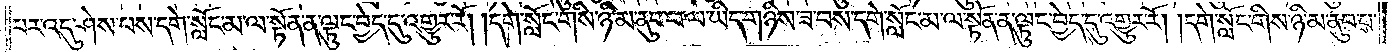པར་འདུ་ཤེས་པས་དགེ་སློང་མ་ལ་སྟོན་ན་ལྟུང་བྱེད་དུ་འགྱུར་རོ། །དགེ་སློང་གིས་ཉི་མ་ནུབ་པ་ལ་ཡིད་གཉིས་ཟ་བས་དགེ་སློང་མ་ལ་སྟོན་ན་ལྟུང་བྱེད་དུ་འགྱུར་རོ། །དགེ་སློང་གིས་ཉི་མ་ནུབ་པ་
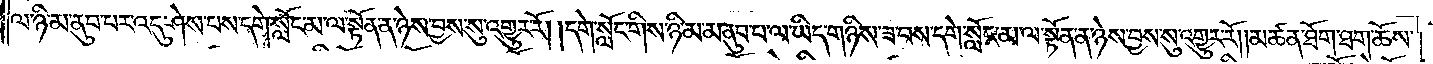ལ་ཉི་མ་ནུབ་པར་འདུ་ཤེས་པས་དགེ་སློང་མ་ལ་སྟོན་ན་ཉེས་བྱས་སུ་འགྱུར་རོ། །དགེ་སློང་གིས་ཉི་མ་མ་ནུབ་པ་ལ་ཡིད་གཉིས་ཟ་བས་དགེ་སློང་མ་ལ་སྟོན་ན་ཉེས་བྱས་སུ་འགྱུར་རོ། །མཚན་ཐོག་ཐག་ཆོས་
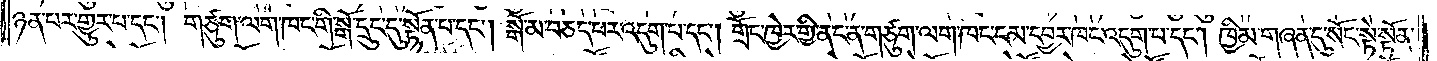ཉན་པར་གྱུར་པ་དང༌། གཙུག་ལག་ཁང་གི་སྒོ་དྲུང་དུ་སྟོན་པ་དང༌། སྒོ་མ་བཅད་པར་འདུག་པ་དང༌། གྲོང་ཁྱེར་གྱི་ནང་ན་གཙུག་ལག་ཁང་ངམ་དབྱར་ཁང་འདུག་པ་དང༌། ཁྱིམ་གཞན་དུ་སོང་སྟེ་སྟོན་
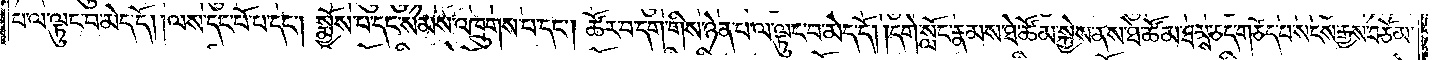པ་ལ་ལྟུང་བ་མེད་དོ། །ལས་དང་པོ་པ་དང༌། སྨྱོས་པ་དང་སེམས་འཁྲུགས་པ་དང༌། ཚོར་བ་དག་གིས་ཉེན་པ་ལ་ལྟུང་བ་མེད་དོ། །དགེ་སློང་རྣམས་ཐེ་ཚོམ་སྐྱེས་ནས་ཐེ་ཚོམ་ཐམས་ཅད་གཅོད་པ་སངས་རྒྱས་བཅོམ་
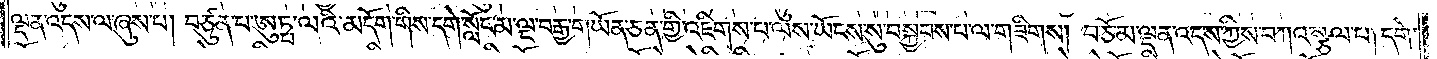ལྡན་འདས་ལ་ཞུས་པ། བཙུན་པ་ཨུཏྤ་ལའི་མདོག་གིས་དགེ་སློང་མ་ལྔ་བརྒྱ་གཡོན་ཅན་གྱི་འཇིགས་པ་ལས་ཡོངས་སུ་བསྐྱབས་པ་ལ་གཟིགས། བཅོམ་ལྡན་འདས་ཀྱིས་བཀའ་སྩལ་པ། དགེ་
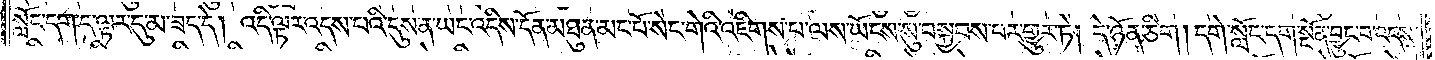སློང་དག་ད་ལྟར་དུ་མ་ཟད་དེ། འདི་ལྟར་འདས་པའི་དུས་ན་ཡང་འདིས་དོན་མཐུན་མང་པོ་སེང་གེའི་འཇིགས་པ་ལས་ཡོངས་སུ་བསྐྱབས་པར་གྱུར་ཏེ། དེ་ཉོན་ཅིག །དགེ་སློང་དག་སྔོན་བྱུང་བ་འདས་
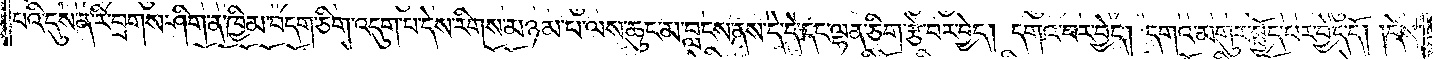པའི་དུས་ན་རི་བྲགས་ཤིག་ན་ཁྱིམ་བདག་ཅིག་འདུག་པ་དེས་རིགས་མཉམ་པ་ལས་ཆུང་མ་བླངས་ནས་དེ་དེ་དང་ལྷན་ཅིག་རྩེ་བར་བྱེད། དགའ་བར་བྱེད། དགའ་མགུར་སྤྱོད་པར་བྱེད་དོ། །དེས་
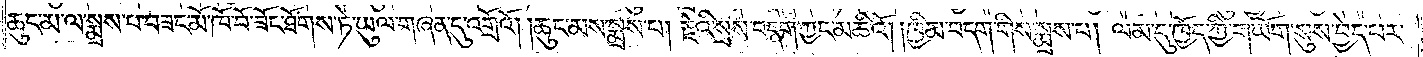ཆུང་མ་ལ་སྨྲས་པ་བཟང་མོ་ཁོ་བོ་ཟོང་ཐོགས་ཏེ་ཡུལ་གཞན་དུ་འགྲོའོ། །ཆུང་མས་སྨྲས་པ། རྗེའི་སྲས་བདག་ཀྱང་མཆིའོ། །ཁྱིམ་བདག་གིས་སྨྲས་པ། ལམ་དུ་ཁྱོད་ཀྱི་གཡོག་སུས་བྱེད་པར་
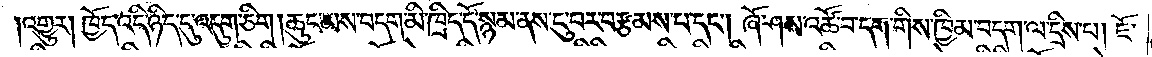འགྱུར། ཁྱོད་འདི་ཉིད་དུ་འདུག་ཅིག །ཆུང་མས་བདག་མི་ཁྲིད་དོ་སྙམ་ནས་ངུ་བར་བརྩམས་པ་དང༌། ཞོ་ཤས་འཚོ་བ་དག་གིས་ཁྱིམ་བདག་ལ་དྲིས་པ། ཇོ་
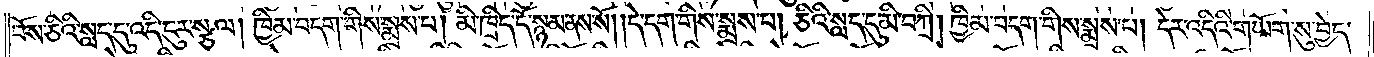བོས་ཅིའི་སླད་དུ་འདི་དུར་སྩལ། ཁྱིམ་བདག་གིས་སྨྲས་པ། མི་ཁྲིད་དོ་སྙམ་ནས་སོ། །དེ་དག་གིས་སྨྲས་པ། ཅིའི་སླད་དུ་མི་བཀྲི། ཁྱིམ་བདག་གིས་སྨྲས་པ། དེར་འདིའི་གཡོག་སུ་བྱེད་
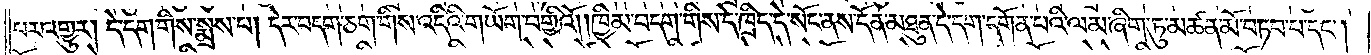པར་འགྱུར། དེ་དག་གིས་སྨྲས་པ། དེར་བདག་ཅག་གིས་འདིའི་གཡོག་བགྱིའོ། །ཁྱིམ་བདག་གིས་དེ་ཁྲིད་དེ་སོང་ནས་དོན་མཐུན་དེ་དག་དགོན་པའི་ལམ་ཞིག་ཏུ་མཚན་མོ་བཏབ་པ་དང༌།
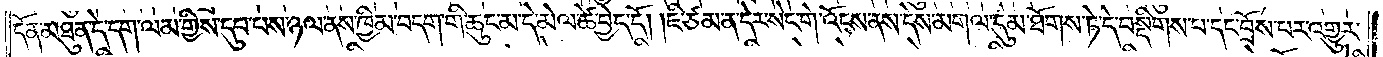དོན་མཐུན་དེ་དག་ལམ་གྱིས་དུབ་པས་ཉལ་ནས་ཁྱིམ་བདག་གི་ཆུང་མ་དེ་མེལ་ཚེ་བྱེད་དོ། །ཇི་ཙམ་ན་དེར་སེང་གེ་འོངས་ནས་དེ་ས་མགལ་དུམ་ཐོགས་ཏེ་དེ་བསྡིགས་པ་དང་བྲོས་པར་འགྱུར་
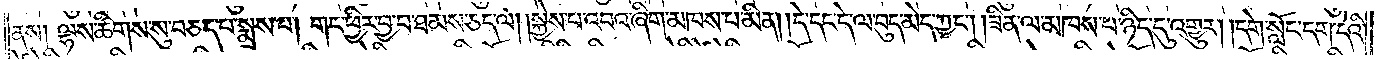ནས། ལྷས་ཚིགས་སུ་བཅད་པ་སྨྲས་པ། གང་ཕྱིར་བྱ་བ་ཐམས་ཅད་ལ། །སྐྱེས་པ་འབའ་ཞིག་མཁས་པ་མིན། །དེ་དང་དེ་ལ་བུད་མེད་ཀྱང༌། །ཟིན་ལ་མཁས་པ་ཉིད་དུ་འགྱུར། །དགེ་སློང་དག་དེའི་
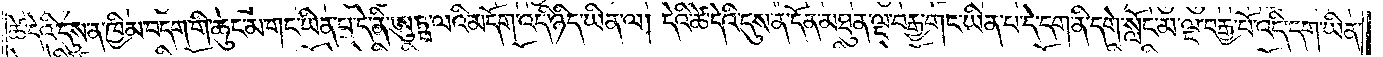ཚེ་དེའི་དུས་ན་ཁྱིམ་བདག་གི་ཆུང་མ་གང་ཡིན་པ་དེ་ནི་ཨུཏྤ་ལའི་མདོག་འདི་ཉིད་ཡིན་ལ། དེའི་ཚེ་དེའི་དུས་ན་དོན་མཐུན་ལྔ་བརྒྱ་གང་ཡིན་པ་དེ་དག་ནི་དགེ་སློང་མ་ལྔ་བརྒྱ་པོ་འདི་དག་ཡིན་
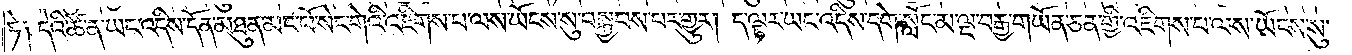ཏེ། དེའི་ཚེ་ན་ཡང་འདིས་དོན་མཐུན་མང་པོས་སེང་གེའི་འཇིགས་པ་ལས་ཡོངས་སུ་བསྐྱབས་པར་གྱུར། ད་ལྟར་ཡང་འདིས་དགེ་སློང་མ་ལྔ་བརྒྱ་གཡོན་ཅན་གྱི་འཇིགས་པ་ལས་ཡོངས་སུ་
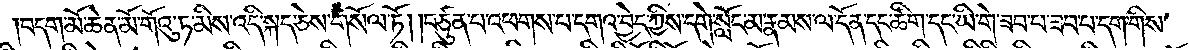བདག་མོ་ཆེན་མོ་གོའུ་ཏ་མིས་འདི་སྐད་ཅེས་གསོལ་ཏོ། །བཙུན་པ་འཕགས་པ་དགའ་བྱེད་ཀྱིས་དགེ་སློང་མ་རྣམས་ལ་དོན་དང་ཚིག་དང་ཡི་གེ་ཟབ་པ་ཟབ་པ་དག་གིས་
